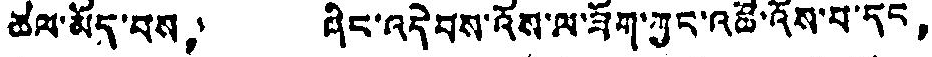ཚལ་མོད་པས， ཞིང་འདེབས་འོས་ལ་ཟོག་ཀྱང་འཚོ་འོས་པ་དང，
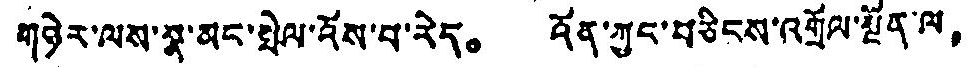གཉེར་ལས་སྣ་མང་སྤེལ་འོས་པ་རེད。 འོན་ཀྱང་བཅིངས་འགྲོལ་སྔོན་ལ，
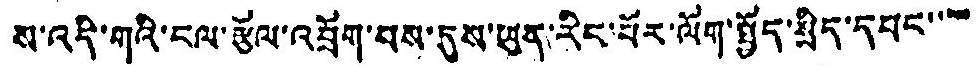ས་འདི་གའི་ངལ་རྩོལ་འབྲོག་པས་དུས་ཡུན་རིང་པོར་ལོག་སྤྱོད་སྲིད་དབང་་་་་
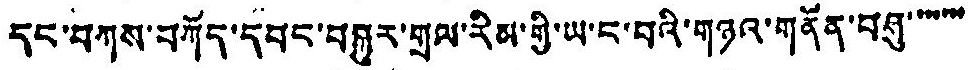དང་བཀས་བཀོད་དབང་བསྐྱར་གྲལ་རིམ་གྱི་ཡ་ང་བའི་གཉའ་གནོན་བཤུ་་་་་་་་
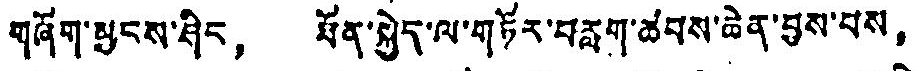གཞོག་མྱངས་ཤིང， ཐོན་སྐྱེད་ལ་གཏོར་བརླག་ཚབས་ཆེན་བྱས་པས，
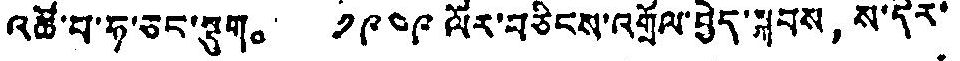འཚོ་བ་ཧ་ཅང་སྡུག。 ༡༩༤༩ ལོར་བཅིངས་འགྲོལ་བྱེད་སྐབས，ས་དེར་
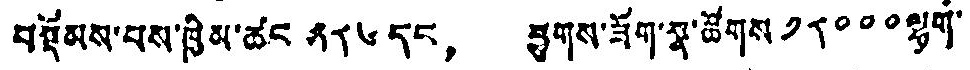བསྡོམས་པས་ཁྱིམ་ཚང ༣༨༦ དང， ཕྱུགས་ཟོག་སྣ་ཚོགས ༡༨༠༠༠ ལྷག་
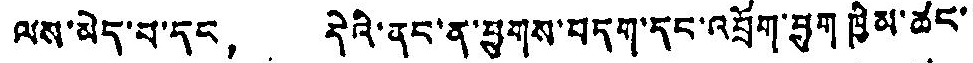ལས་མེད་པ་དང， དེའི་ནང་ན་ཕྱུགས་བདག་དང་འབྲོག་ཕྱུག ཁྱིམ་ཚང་
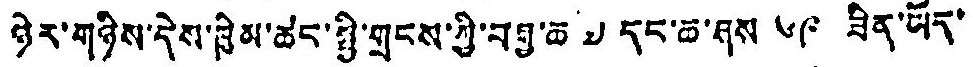ཉེར་གཉིས་དེས་ཁྱིམ་ཚང་སྤྱི་གྲངས་ཀྱི་བརྒྱ་ཆ ༧ དང་ཆ་ཤས ༦༩ ཟིན་ཡོད་
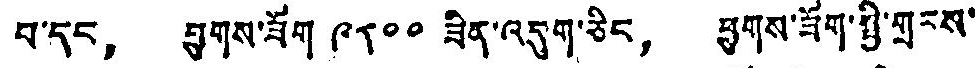བ་དང， ཕྱུགས་ཟོག ༩༨༠༠ ཟིན་འདུག་ཅིང， ཕྱུགས་ཟོག་སྤྱི་གྲངས་
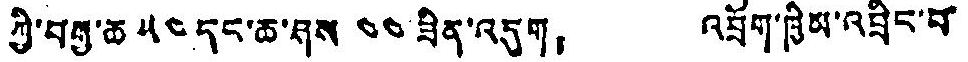ཀྱི་བརྒྱ་ཆ ༥༤ དང་ཆ་ཤས ༤༤ ཟིན་འདུག！ འབྲོག་ཁྱིམ་འབྲིང་བ་
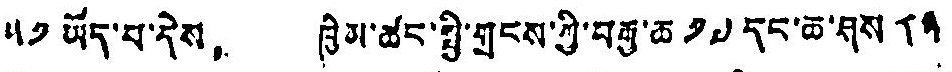༥༡ ཡོད་པ་དེས， ཁྱིམ་ཚང་སྤྱི་གྲངས་ཀྱི་བརྒྱ་ཆ ༡༧ དང་ཆ་ཤས ༨༣
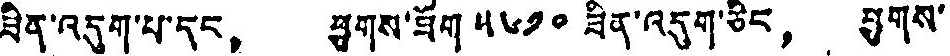ཟིན་འདུག་པ་དང， ཕྱུགས་ཐོག ༥༦༡༠ ཟིན་འདུག་ཅིང， ཕྱུགས་
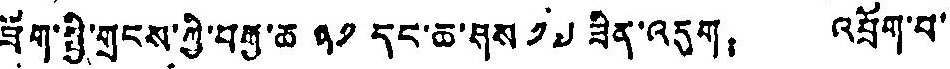ཐོག་སྤྱི་གྲངས་ཀྱི་བརྒྱ་ཆ ༣༡ དང་ཆ་ཤས ༡༧ ཟིན་འདུག！ འབྲོག་པ་
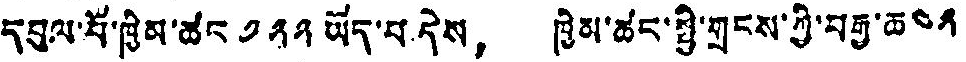དབུལ་པོ་ཁྱིམ་ཚང ༡༢༢ ཡོད་པ དེས， ཁྱིམ་ཚང་སྤྱི་གྲངས་ཀྱི་བརྒྱ་ཆ༤༢
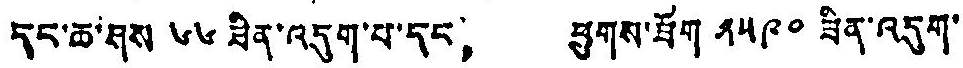དང་ཆ་ཤས ༦༦ ཟིན་འདུག་པ་དང， ཕྱུགས་ཐོག ༢༥༩༠ ཟིན་འདུག་
